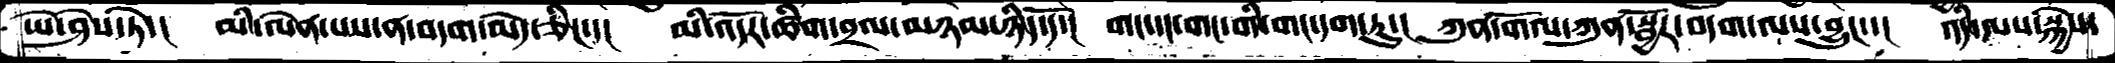ཡེ་ཤེས་ཏེ་།  མི་ལེན་པས་ན་བདག་མེད་ཅིང་་།  མི་འདོར་ཚིག་བྲལ་མཉམ་ཉིད་དོ་།  གང་དང་གང་གི་གང་དག་ཏུ་།  ཀུན་གོལ་ཀུན་སྦྱོར་བདག་ལས་བྱུང་་།  འདི་ལས་སྐྱེས་
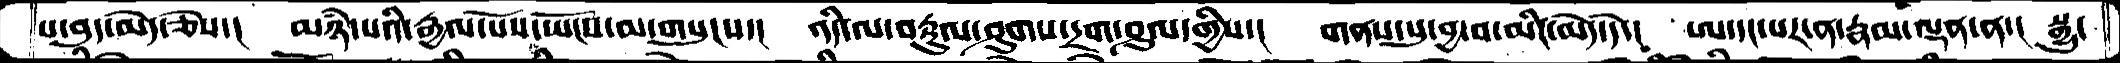པ་བུད་མེད་ཅེས་།  མཉཾ་པའི་རྒྱལ་པོས་ཡོངས་མ་གསུངས་།  འདི་ལ་བརྟུལ་ཤུགས་དྲག་ཤུལ་གྱིས་།  གནས་སུ་བྱ་བ་མིང་མེད་དེ་།  ཨ་དང་པར་ན་རྣམ་ལྡན་ན་།  སྒྱུ་
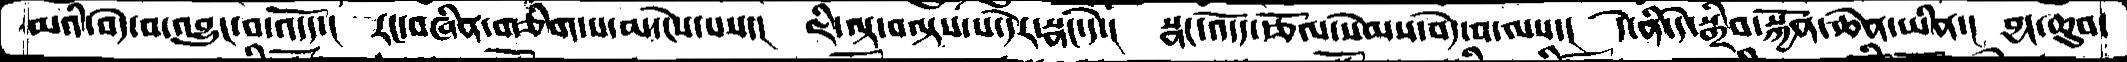མའི་བདེ་བ་འབྱུང་བ་འདོད་།  རང་བཞིན་གཅིག་པ་མ་ངེས་པས་།  ཇི་ལྟ་བལྟས་པ་དེར་སྣང་དེ་།  སྣང་འདོད་རྩོལ་སེམས་བདེ་བ་ལས་།  དེ་ནི་དེ་སྒྲིབ་སྐྱོན་ཆེན་ཡིན་།  བྱང་ཆུབ་
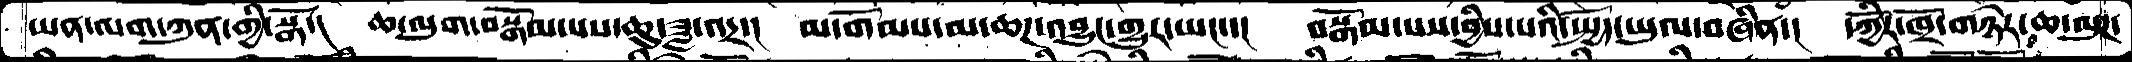ཡན་ལག་ཀུན་གྱི་སྒོ་།   ཆ་ལུག་བསྒོམ་པས་ཆུ་ཟླ་འདྲ་།  མ་གོམས་མ་ཆཌ་འབྱུང་གྱུར་ཡང་་།  བསྒོམ་པས་བྱིས་པའི་སྤྱོད་ཡུལ་བཞིན་།  དཀྱིོར་ཁྲོ་གཉེར་ཆ་ལུཌ་
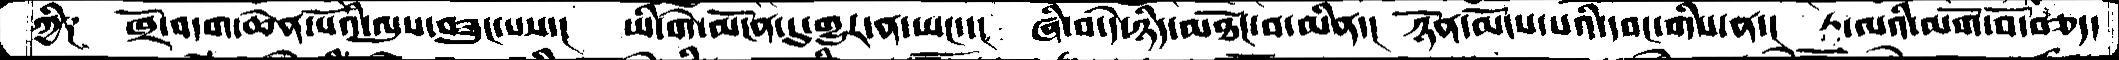ཀྱི༑   ཁྲོ་བདག་ཆེན་པོའི་ལུས་བཟུང་པས་།  ཡི་གེ་མངོན་དུ་གྱུར་ན་ཡང་་།  ཞི་བ་དེ་ཉིད་མཐོང་བ་མིན་།  ཉོན་མོངས་པའི་དབང་གིས་ན་།  ཏ་ལའི་མགོ་བོ་བཅད་
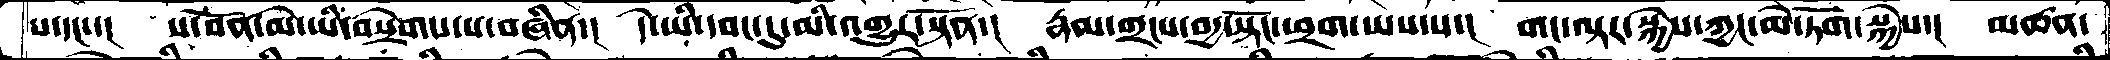པ་དང་་།   ས་བོན་མེ་ཡི་བསྲེགས་པ་བཞིན་།  དེ་ཡི་དབང་དུ་མི་འགྱུར་སྟོན་།  རྣམ་གྲངས་བདྱ་སྟོང་ཕྲག་ཡས་པ་།  གང་ལྟར་སྐྱེས་ཀྱང་མེ་ཏོག་སྐྱེས་།  མཚན་
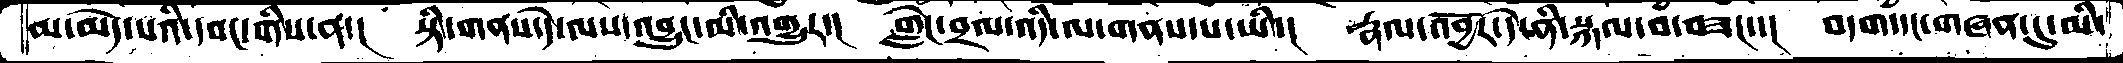མ་མེད་པའི་དབང་གིས་ན་།   སྟི་གནས་དེ་ལས་འབྱུང་མི་འགྱུར་།   གླེང་བྲལ་འདི་ལ་གནས་པ་ཡི་།   རྣལ་འབྱོར་དེ་ནི་སྐལ་བ་བཟང་་།   བདག་དང་གཞན་དུ་མི་
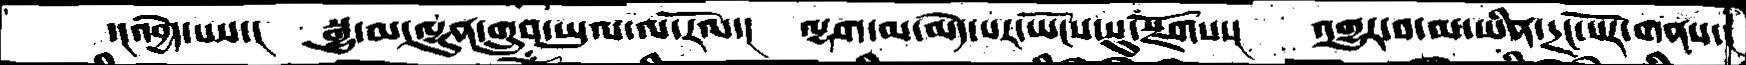་།འབྱེད་པས་།   སྒྱུ་མ་ལྷུན་གྲུབ་ཡུལ་ལ་རོལ་།   ལྷག་མ་མེད་པར་ཡོངས་སུ་སྫོགས་།    འགྱུར་བ་མ་ཡིན་དྲང་པོར་གནས་།
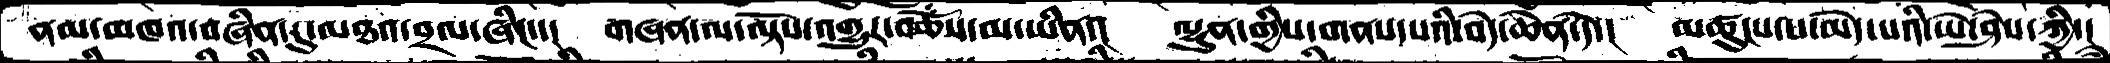ནམ་མཁའ་བཞིན་དུ་མཐའ་བྲལ་ཞིང་་།   གཞན་ལ་ལྟོས་འགྱུར་བཅོས་མ་ཡིན་།   ལྷུན་གྱིས་གནས་པའི་བདེ་ཆེན་དེ་།   མཚུངས་པ་མེད་པའི་ཡེ་ཤེས་ཀྱི་།
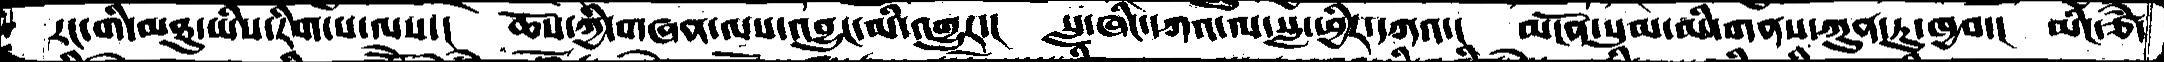རང་གི་མཐུ་ཡིས་རིག་པ་ལས་།   ཆོས་ཀྱི་གཞན་ལས་འབྱུང་མི་འགྱུར་།   སླ་ཞིང་དཀའ་ལ་སླ་ཕྱིར་དཀའ་།   མངོན་སུམ་མི་གནས་ཀུན་ཏུ་ཁྱབ་།   མིང་ཙཾ་
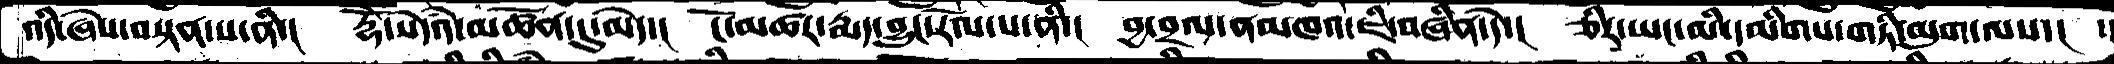འདི་ཞེས་བསྟན་པ་ནི་།   རྡོེ་སེདཾའ་མཚོན་དུ་མེད་།   ངོ་མཚར་རྨད་བྱུང་རོལ་པ་ནི་།   བྱ་བྲལ་ནམཁའ་ཇི་བཞིན་དེ་།   ཅིར་ཡང་མི་དམིགས་གཏི་མུག་ལས་།  ་
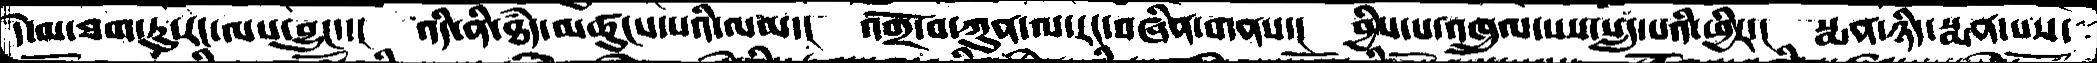དེ་མ་ཐག་ཏུ་རང་ལས་བྱུང་་།  འདི་ནི་ཐཾད་མཚུངས་པའི་ལམ་།  འགྲོ་བ་ཀུན་ལ་རང་བཞིན་གནས་།  བྱིས་པ་འཁྲུལ་པས་སླད་པའི་ཕྱིར་།  སྨན་ཉིད་སྨན་པས་
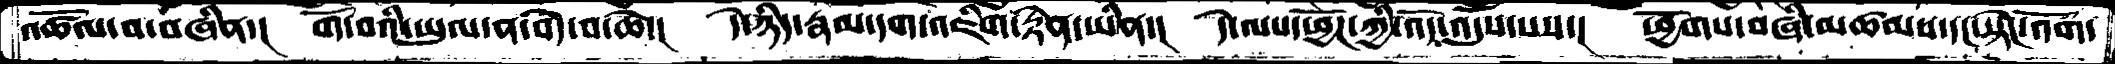འཚོལ་བ་བཞིན་།  གོ་བའི་ཡུལ་ན་བདེ་བ་ཆེ་།  དེ་ཉིད་རྣམ་དག་འཇིག་རྟེན་ཡིན་།  དེ་ལས་ཕྱོཌ་ཀྱིའོད་འདུས་པས་།  ཕྱོགས་བཞི་མཚམས་དང་སྟེང་འོག་
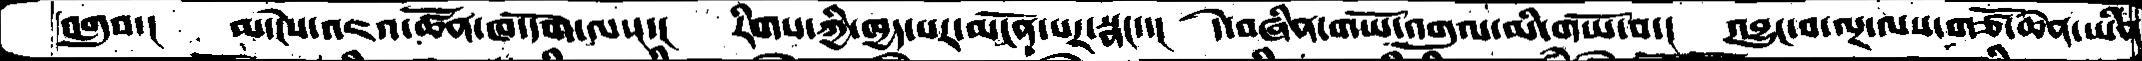འགྲུབ་།  མ་ངེས་འཇའ་ཚོན་ཁ་དོག་ལས་།  རིགས་ཀྱི་ཁྱད་པར་མངོན་པར་སྣང་་།  དེ་བཞིན་གཡོ་འགུལ་མི་གཡོ་བ་།  འབྱུང་བ་ལྔ་ལས་གཙོ་ཆེན་ཡིན
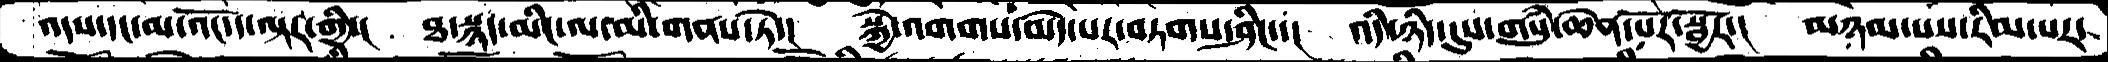འདའ་དང་མ་འོང་ད་ལྟར་གྱི་།  ཐ་སྙད་མིང་ལ་མི་གནས་ཏེ་།  སྐྱེ་འགགས་མེད་པར་བཏགས་ཤིང་་།  འདི་ཉིད་དུས་གསུཾ་ཆེན་པོར་སྦྱོར་།  མཉམ་པས་རིམ་པར་
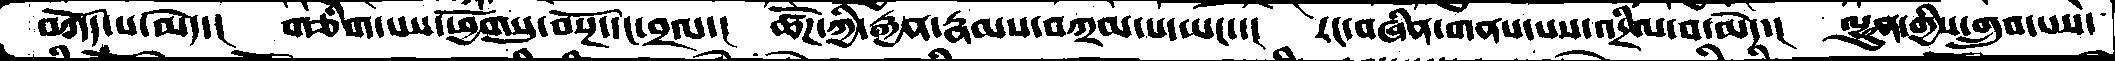བཀོད་པ་མེད་།  གཅིག་པས་ཕྱོགསུ་བསྔོ་དང་བྲལ་།  ཚོཌ་ཀྱི་རྒྱན་རྣམས་བཀྲམ་པ་ཡང་་།  རང་བཞིན་གནས་པས་འདྲིལ་བ་མེད་།  ལྷུན་གྱིས་གྲུབ་པས་
